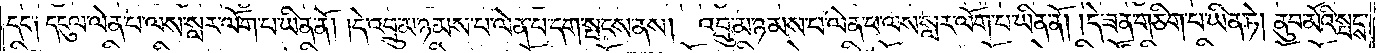དང༌། དངུལ་ལེན་པ་ལས་སླར་ལོག་པ་ཡིན་ནོ། །དེ་འབྲུ་མ་ཉམས་པ་ལེན་པ་དག་སྤངས་ནས། འབྲུ་མ་ཉམས་པ་ལེན་པ་ལས་སླར་ལོག་པ་ཡིན་ནོ། །དེ་ཟན་གཅིག་པ་ཡིན་ཏེ། ནུབ་མོའི་སྤངས་
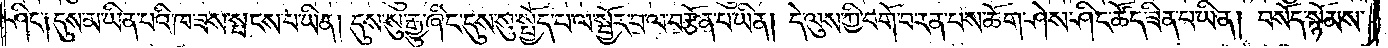ཤིང་༑ དུས་མ་ཡིན་པའི་ཁ་ཟས་སྤངས་པ་ཡིན། དུས་སུ་རྒྱུ་ཞིང་དུས་སུ་སྤྱོད་པ་ལ་སྦྱོར་བ་ལ་བརྩོན་པ་ཡིན། དེ་ལུས་ཀྱི་བགོ་བ་རན་པས་ཆོག་ཤེས་ཤིང་ཚོད་ཟིན་པ་ཡིན། བསོད་སྙོམས་
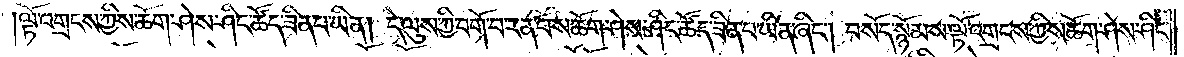ལྟོ་འགྲངས་ཀྱིས་ཆོག་ཤེས་ཤིང་ཚོད་ཟིན་པ་ཡིན། དེ་ལུས་ཀྱི་བགོ་བ་རན་བས་ཆོག་ཤེས་ཤིང་ཚོད་ཟིན་པ་ཡིན་ཞིང༌། བསོད་སྙོམས་ལྟོ་འགྲངས་ཀྱིས་ཆོག་ཤེས་ཤིང་
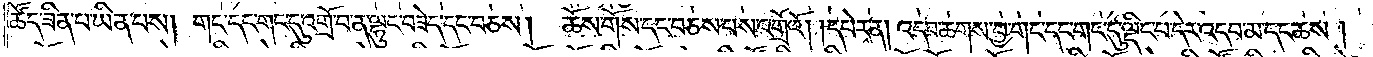ཚོད་ཟིན་པ་ཡིན་པས། གང་དང་གང་དུ་འགྲོ་བ་ན་ལྷུང་བཟེད་དང་བཅས། ཆོས་གོས་དང་བཅས་པས་འགྲོའོ། །དཔེར་ན། འདབ་ཆགས་བྱ་གང་དང་གང་དུ་ལྡིང་བ་དེར་འདབ་མ་དང་ཆས།
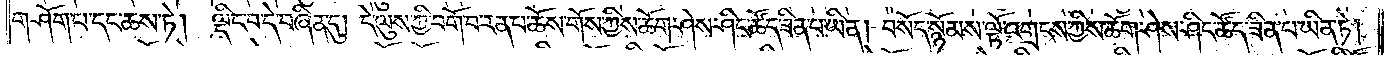གཤོག་པ་དང་ཆས་ཏེ། ལྡིང་བ་དེ་བཞིན་དུ། དེ་ལུས་ཀྱི་བགོ་བ་རན་པ་ཆོས་གོས་ཀྱིས་ཆོག་ཤེས་ཤིང་ཚོད་ཟིན་པ་ཡིན། བསོད་སྙོམས་ལྟོ་འགྲངས་ཀྱིས་ཆོག་ཤེས་ཤིང་ཚོད་ཟིན་པ་ཡིན་ཏེ།
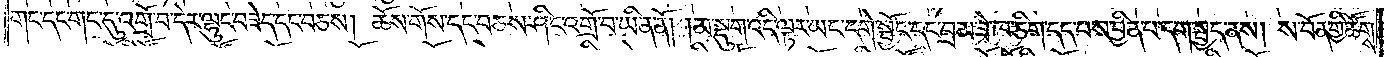གང་དང་གང་དུ་འགྲོ་བ་དེར་ལྷུང་བཟེད་དང་བཅས། ཆོས་གོས་དང་བཅས་ཤིང་འགྲོ་བ་ཡིན་ནོ། །མ་སྡུག་འདི་ལྟར་ཡང་དགེ་སྦྱོང་དང་བྲམ་ཟེ་ཁ་ཅིག་དད་པས་བྱིན་པ་དག་སྤྱད་ནས། ས་བོན་གྱི་ཚོགས་
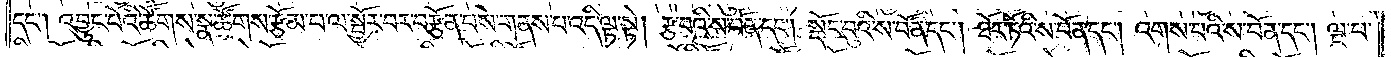དང༌། འབྱུང་པོའི་ཚོགས་སྣ་ཚོགས་རྩོམ་པ་ལ་སྦྱོར་བར་བརྩོན་བསེ་གནས་པ་འདི་ལྟ་སྟེ། རྩ་བའི་ས་བོན་དང༌། སྡོང་བུའི་ས་བོན་དང༌། ཐོར་ཏོའི་ས་བོན་དང༌། འགས་པའི་ས་བོན་དང༌། ལྔ་པ་
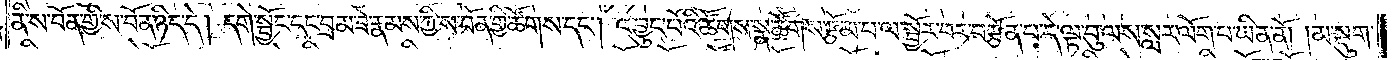ནི་ས་བོན་གྱི་ས་བོན་ཉིད་དེ། དགེ་སྦྱོང་དང་བྲམ་ཟེ་རྣམས་ཀྱི་ས་བོན་གྱི་ཚོགས་དང༌། འབྱུང་པོའི་ཚོགས་སྣ་ཚོགས་རྩོམ་པ་ལ་སྦྱོར་བར་བརྩོན་པ་དེ་ལྟ་བུ་ལས་སླར་ལོག་པ་ཡིན་ནོ། །མ་སྡུག་
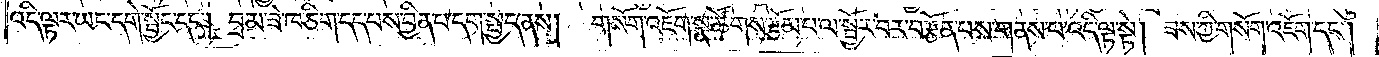འདི་ལྟར་ཡང་དགེ་སྦྱོང་དང༌། བྲམ་ཟེ་ཁ་ཅིག་དད་པས་བྱིན་པ་དག་སྤྱད་ནས། གསོག་འཇོག་སྣ་ཚོགས་རྩོམ་པ་ལ་སྦྱོར་བར་བརྩོན་པས་གནས་པ་འདི་ལྟ་སྟེ། ཟས་ཀྱི་གསོག་འཇོག་དང༌།
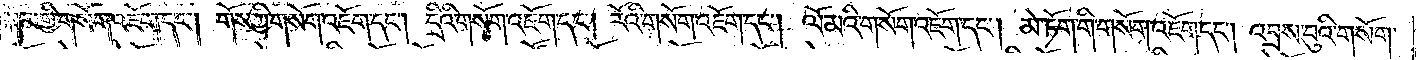སྐོམ་གྱི་གསོག་འཇོག་དང༌། གོས་ཀྱི་གསོག་འཇོག་དང༌། དྲིའི་གསོག་འཇོག་དང༌། རོའི་གསོག་འཇོག་དང༌། ལོ་མའི་གསོག་འཇོག་དང༌། མེ་ཏོག་གི་གསོག་འཇོག་དང༌། འབྲས་བུའི་གསོག་
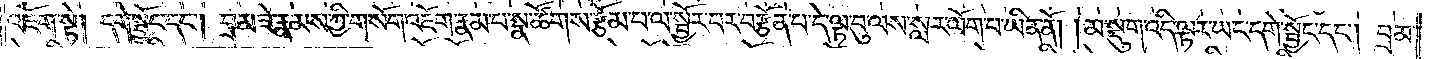འཇོག་སྟེ། དགེ་སྦྱོང་དང༌། བྲམ་ཟེ་རྣམས་ཀྱི་གསོག་འཇོག་རྣམ་པ་སྣ་ཚོགས་རྩོམ་པ་ལ་སྦྱོར་བར་བརྩོན་པ་དེ་ལྟ་བུ་ལས་སླར་ལོག་པ་ཡིན་ནོ། །མ་སྡུག་འདི་ལྟར་ཡང་དགེ་སྦྱོང་དང༌། བྲམ་
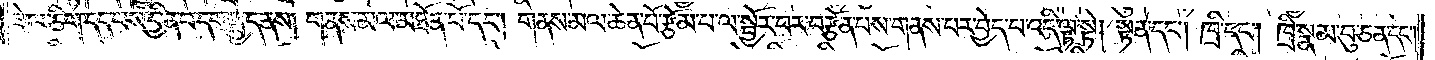ཟེ་ཁ་ཅིག་དད་པས་བྱིན་བདག་སྤྱད་ནས། གནས་མལ་མཐོན་པོ་དང༌། གནས་མལ་ཆེན་པོ་རྩོམ་པ་ལ་སྦྱོར་བར་བརྩོན་པས་གནས་པར་བྱེད་པ་འདི་ལྟ་སྟེ། སྟན་དང༌། ཁྲི་དང༌། ཁྲི་སྣམ་བུ་ཅན་དང༌།
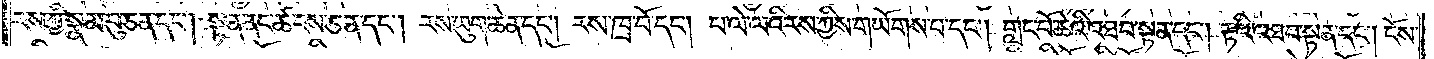རས་ཀྱི་སྣམ་བུ་ཅན་དང༌། སྟན་ནང་ཚངས་ཅན་དང༌། རས་ཡུག་ཆེན་དང༌། རས་ཁྲ་བོ་དང༌། པ་ལེ་ལའི་རས་ཀྱིས་གཡོགས་པ་དང༌། གླང་པོ་ཆེའི་འཐབ་སྟན་དང༌། རྟའི་འཐབ་སྟན་དང༌། ངོས་
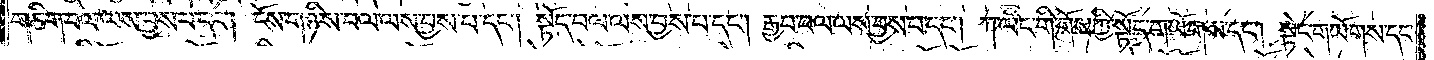གཅིག་བལ་ལས་བྱས་པ་དང༌། ངོས་གཉིས་བལ་ལས་བྱས་པ་དང༌། སྟོད་བལ་ལས་བྱས་པ་དང༌། རྒྱབ་བལ་ལས་བྱས་པ་དང༌། ཀ་ལིང་གི་གོས་ཀྱི་སྟོད་གཡོགས་དང༌། སྟེང་གཡོགས་དང་
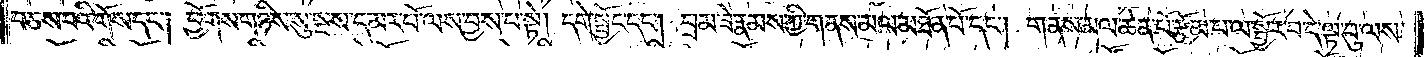བཅས་པའི་གོས་དང༌། ཕྱོགས་གཉིས་སུ་སྔས་དམར་པོ་ལས་བྱས་པ་སྟེ། དགེ་སྦྱོང་དང༌། བྲམ་ཟེ་རྣམས་ཀྱི་གནས་མལ་མཐོན་པོ་དང༌། གནས་མལ་ཆེན་པོ་རྩོམ་པ་ལ་སྦྱོར་བ་དེ་ལྟ་བུ་ལས་
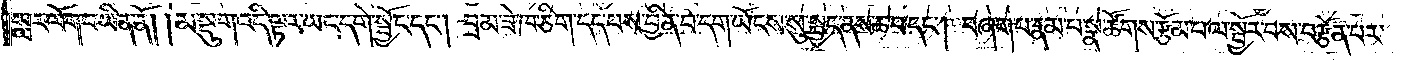སླར་ལོག་པ་ཡིན་ནོ། །མ་སྡུག་འདི་ལྟར་ཡང་དགེ་སྦྱོང་དང༌། བྲམ་ཟེ་ཁ་ཅིག་དད་པས་བྱིན་པ་དག་ཡོངས་སུ་སྤྱད་ནས་ཆ་བ་དང༌། བཞག་པ་རྣམ་པ་སྣ་ཚོགས་རྩོམ་པ་ལ་སྦྱོར་བས་བརྩོན་པ་
